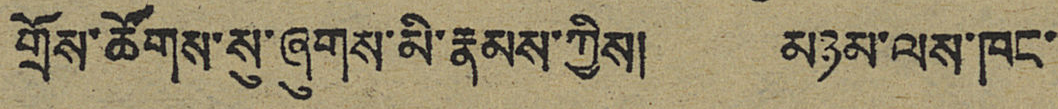གྲོ་ཚོགས་སུ་ཞུགས་མི་རྣམས་ཀྱིས། མཉམ་ལས་ཁང་
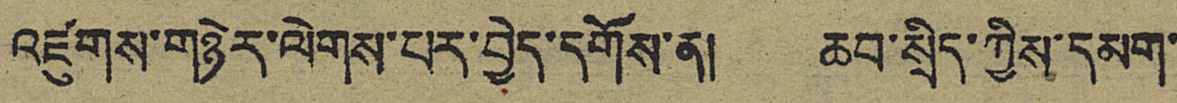འཛུགས་གཉེར་ལེགས་པར་བྱེད་དགོས་ན། ཆབ་སྲིད་ཀྱིས་དམག་
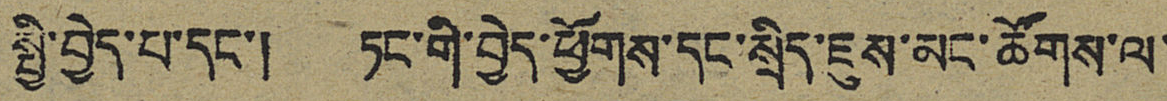སྤྱི་བྱེད་པ་དང་། ཏང་གི་བྱེད་ཕྱོགས་དང་སྲིད་ཇུས་མང་ཚོགས་ལ་
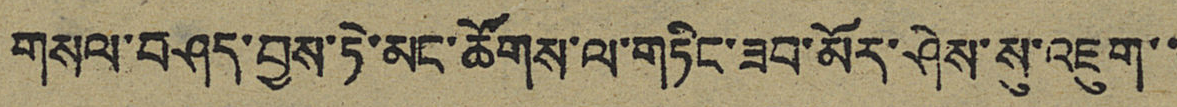གསལ་བཤད་བྱས་ཏེ་མང་ཚོགས་ལ་གཏིང་ཟབ་མོར་ཤེས་སུ་འཇུག་་
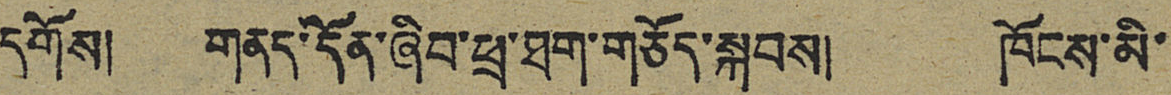དགོས། གནད་དོན་ཞིབ་ཕྲ་ཐག་གཅོད་སྐབས། ཁོངས་མི་
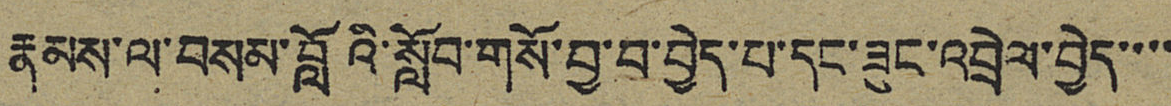རྣམས་ལ་བསམ་བློའི་སློབ་གསོ་བྱ་བ་བྱེད་པ་དང་ཟུང་འབྲེལ་བྱེད་་་་
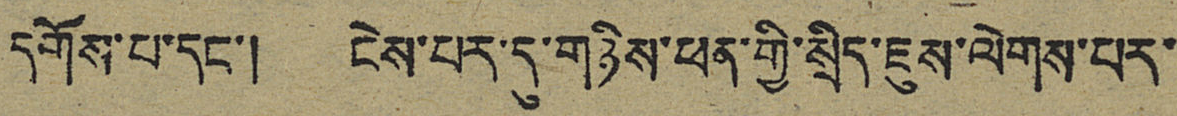དགོས་པ་དང་། ངེས་པར་དུ་གཉིས་ཕན་གྱི་སྲིད་ཇུས་ལེགས་པར་
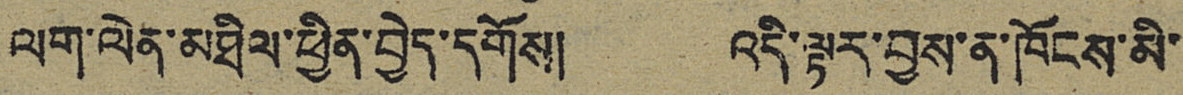ལག་ལེན་མཐིལ་ཕྱིན་བྱེད་དགོས། འདི་ལྟར་བྱས་ན་ཁོངས་མི་
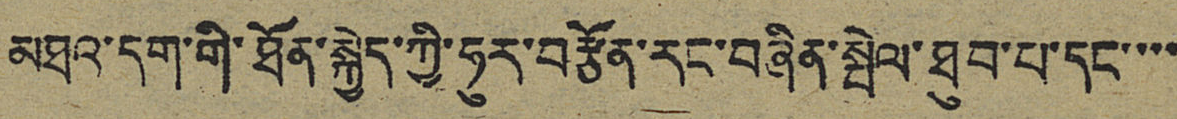མཐའ་དག་གི་ཐོན་སྐྱེད་ཀྱི་ཧུར་བརྩོན་རང་བཞིན་སྤེལ་ཐུབ་པ་དང་་་་
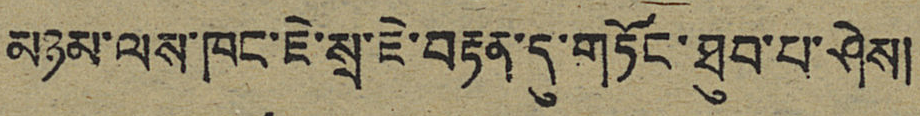མཉམ་ལས་ཁང་ཇེ་སྲ་ཇེ་བརྟན་དུ་གཏོང་ཐུབ་པ་ཤེས།
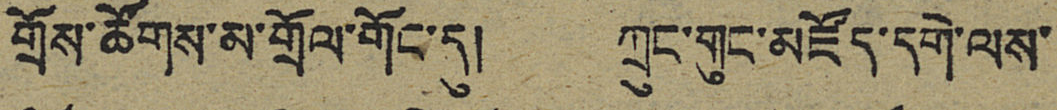གྲོས་ཚོགས་མ་གྲོལ་གོང་དུ། ཀྲུང་གུང་མཛོད་དགེ་ལས་
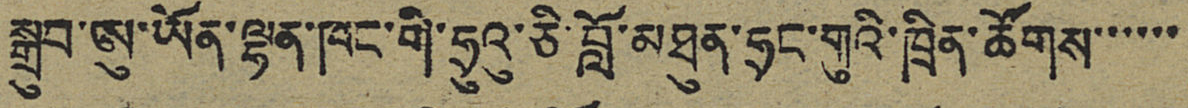སྒྲུབ་ཨུ་ཡོན་ལྷན་ཁང་གི་ཧྲུའུ་ཅི་བློ་མཐུན་ཧྲང་གུའི་ཁྲིན་ཚོགས་་་་་་
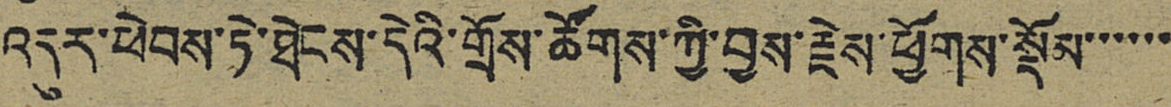འདུར་ཕེབས་ཏེ་ཐེངས་དེའི་གྲོས་ཚོགས་ཀྱི་བྱས་རྗེས་ཕྱོགས་སྡོམ་་་་་་
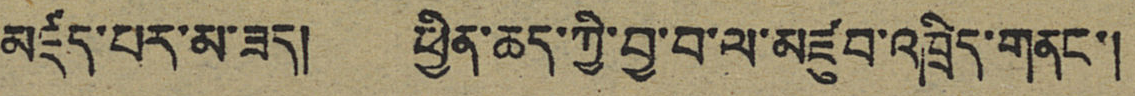མཛད་པར་མ་ཟད། ཕྱིན་ཆད་ཀྱི་བྱ་བ་ལ་མཛུབ་འཁྲིད་གནང་།
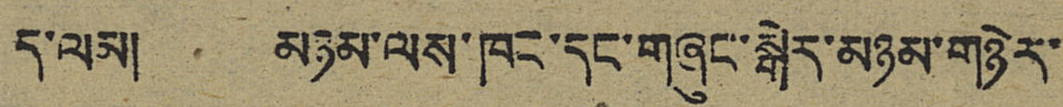ད་ལམ། མཉམ་ལས་ཁང་དང་གཞུང་སྒེར་མཉམ་གཉེར་
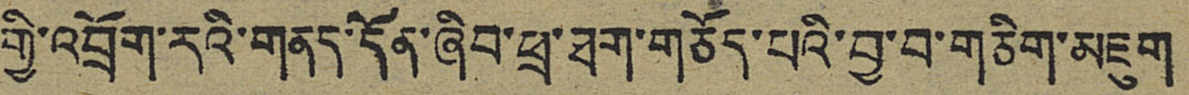གྱི་འབྲོག་རའི་གནད་དོན་ཞིབ་ཕྲ་ཐག་གཅོད་པའི་བྱ་བ་གཅིག་མཇུག
